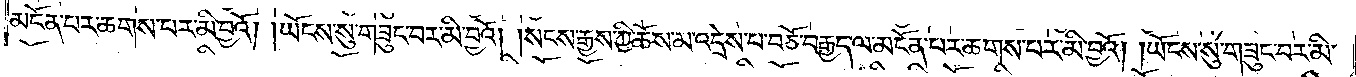མངོན་པར་ཆགས་པར་མི་བྱའོ། །ཡོངས་སུ་གཟུང་བར་མི་བྱའོ། །སངས་རྒྱས་ཀྱི་ཆོས་མ་འདྲེས་པ་བཅོ་བརྒྱད་ལ་མངོན་པར་ཆགས་པར་མི་བྱའོ། །ཡོངས་སུ་གཟུང་བར་མི་
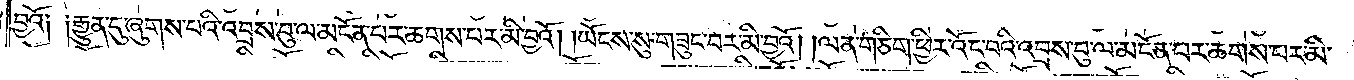བྱའོ༑ ༑རྒྱུན་དུ་ཞུགས་པའི་འབྲས་བུ་ལ་མངོན་པར་ཆགས་པར་མི་བྱའོ། །ཡོངས་སུ་གཟུང་བར་མི་བྱའོ། །ལན་གཅིག་ཕྱིར་འོང་བའི་འབྲས་བུ་ལ་མངོན་པར་ཆགས་པར་མི་
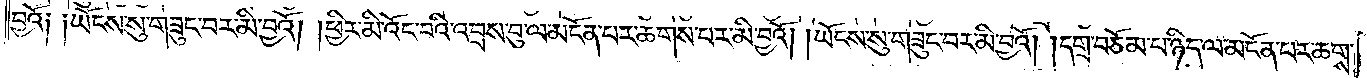བྱའོ༑ ༑ཡོངས་སུ་གཟུང་བར་མི་བྱའོ། །ཕྱིར་མི་འོང་བའི་འབྲས་བུ་ལ་མངོན་པར་ཆགས་པར་མི་བྱའོ། །ཡོངས་སུ་གཟུང་བར་མི་བྱའོ། །དགྲ་བཅོམ་པ་ཉིད་ལ་མངོན་པར་ཆགས་
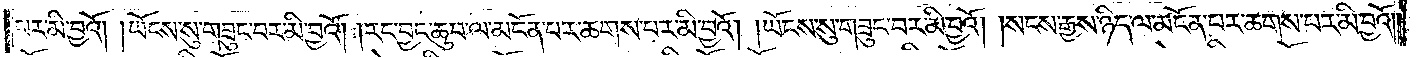པར་མི་བྱའོ། །ཡོངས་སུ་གཟུང་བར་མི་བྱའོ། །རང་བྱང་ཆུབ་ལ་མངོན་པར་ཆགས་པར་མི་བྱའོ། །ཡོངས་སུ་གཟུང་བར་མི་བྱའོ། །སངས་རྒྱས་ཉིད་ལ་མངོན་པར་ཆགས་པར་མི་བྱའོ༎
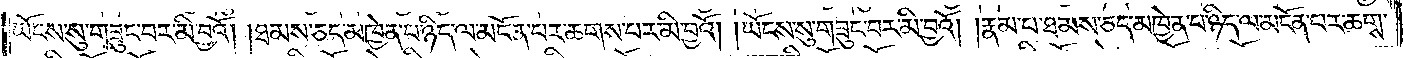ཡོངས་སུ་གཟུང་བར་མི་བྱའོ། །ཐམས་ཅད་མཁྱེན་པ་ཉིད་ལ་མངོན་པར་ཆགས་པར་མི་བྱའོ། །ཡོངས་སུ་གཟུང་བར་མི་བྱའོ། །རྣམ་པ་ཐམས་ཅད་མཁྱེན་པ་ཉིད་ལ་མངོན་པར་ཆགས་
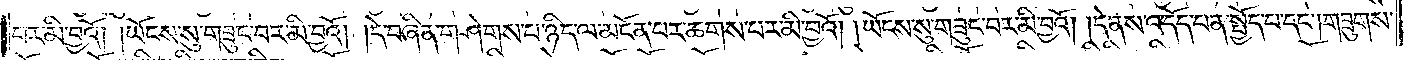པར་མི་བྱའོ། །ཡོངས་སུ་གཟུང་བར་མི་བྱའོ། །དེ་བཞིན་གཤེགས་པ་ཉིད་ལ་མངོན་པར་ཆགས་པར་མི་བྱའོ། །ཡོངས་སུ་གཟུང་བར་མི་བྱའོ། །དེ་ནས་འདོད་པ་ན་སྤྱོད་པ་དང༌། གཟུགས་
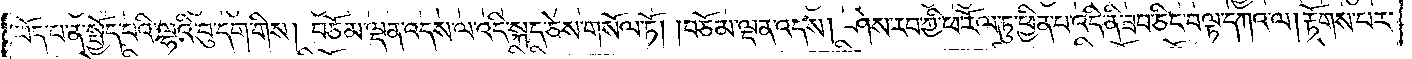ཡོད་པ་ན་སྤྱོད་པའི་ལྷའི་བུ་དག་གིས། བཅོམ་ལྡན་འདས་ལ་འདི་སྐད་ཅེས་གསོལ་ཏོ། །བཅོམ་ལྡན་འདས། ཤེས་རབ་ཀྱི་ཕ་རོལ་ཏུ་ཕྱིན་པ་འདི་ནི་ཟབ་ཅིང་བལྟ་དཀའ་ལ། རྟོགས་པར་
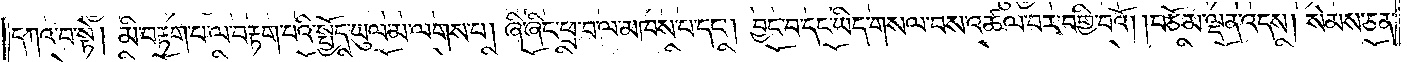དཀའ་བ་སྟེ། མི་བརྟག་པ་ལ་བརྟག་པའི་སྤྱོད་ཡུལ་མ་ལགས་པ། ཞི་ཞིང་ཕྲ་བ་ལ་མཁས་པ་དང༌། བྱང་བ་དང་ཡིད་གསལ་བས་འཚལ་བར་བགྱི་བའོ། །བཅོམ་ལྡན་འདས། སེམས་ཅན་
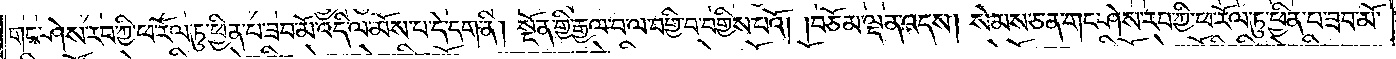གང་ཤེས་རབ་ཀྱི་ཕ་རོལ་ཏུ་ཕྱིན་པ་ཟབ་མོ་འདི་ལ་མོས་པ་དེ་དག་ནི། སྔོན་གྱི་རྒྱལ་བ་ལ་བགྱི་བ་བགྱིས་པའོ། །བཅོམ་ལྡན་འདས། སེམས་ཅན་གང་ཤེས་རབ་ཀྱི་ཕ་རོལ་ཏུ་ཕྱིན་པ་ཟབ་མོ་
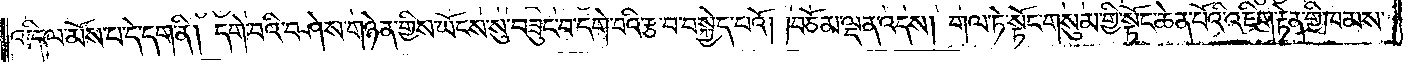འདི་ལ་མོས་པ་དེ་དག་ནི། དགེ་བའི་བཤེས་གཉེན་གྱིས་ཡོངས་སུ་གཟུང་བ་དགེ་བའི་རྩ་བ་བསྐྱེད་པའོ། །བཅོམ་ལྡན་འདས། གལ་ཏེ་སྟོང་གསུམ་གྱི་སྟོང་ཆེན་པོའི་འཇིག་རྟེན་གྱི་ཁམས་
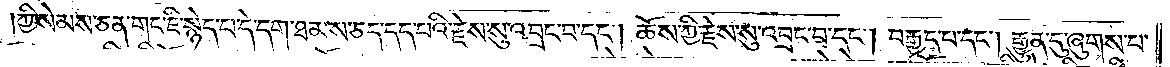ཀྱི་སེམས་ཅན་གང་ཇི་སྙེད་པ་དེ་དག་ཐམས་ཅད་དད་པའི་རྗེས་སུ་འབྲང་བ་དང༌། ཆོས་ཀྱི་རྗེས་སུ་འབྲང་བ་དང༌། བརྒྱད་པ་དང༌། རྒྱུན་དུ་ཞུགས་པ་
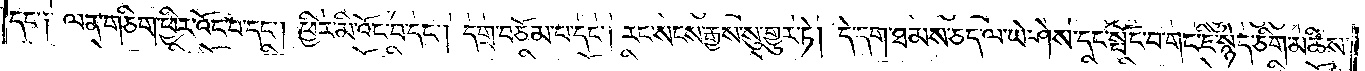དང༌༑ ལན་གཅིག་ཕྱིར་འོང་བ་དང༌། ཕྱིར་མི་འོང་བ་དང༌། དགྲ་བཅོམ་པ་དང༌། རང་སངས་རྒྱས་སུ་གྱུར་ཏེ། དེ་དག་ཐམས་ཅད་ལ་ཡེ་ཤེས་དང་སྤོང་བ་གང་ཇི་སྙེད་ཅིག་མཆིས་
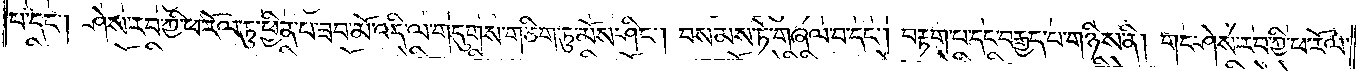པ་དང༌། ཤེས་རབ་ཀྱི་ཕ་རོལ་ཏུ་ཕྱིན་པ་ཟབ་མོ་འདི་ལ་གདུགས་གཅིག་ཏུ་མོས་ཤིང༌། བསམས་ཏེ་གཞལ་བ་དང༌། བརྟག་པ་དང་བརྒྱད་པ་གཉིས་ནི། གང་ཤེས་རབ་ཀྱི་ཕ་རོལ་
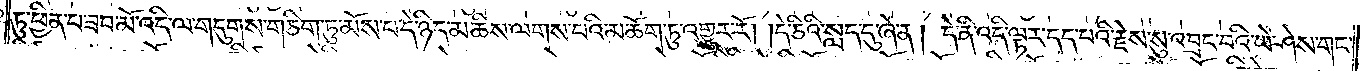ཏུ་ཕྱིན་པ་ཟབ་མོ་འདི་ལ་གདུགས་གཅིག་ཏུ་མོས་པ་དེ་ཉིད་མཆིས་ལགས་པའི་མཆོག་ཏུ་འགྱུར་རོ། །དེ་ཅིའི་སླད་དུ་ཞེ་ན། དེ་ནི་འདི་ལྟར་དད་པའི་རྗེས་སུ་འབྲང་བའི་ཡེ་ཤེས་གང་
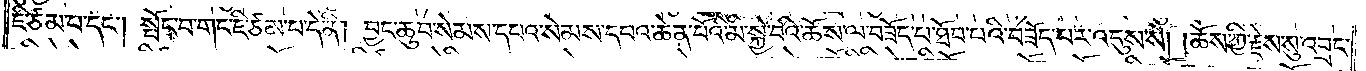ཇི་ཙམ་པ་དང༌། སྤོང་བ་གང་ཇི་ཙམ་པ་དེ་ནི། བྱང་ཆུབ་སེམས་དཔའ་སེམས་དཔའ་ཆེན་པོའི་མི་སྐྱེ་བའི་ཆོས་ལ་བཟོད་པ་ཐོབ་པའི་བཟོད་པར་འདུས་སོ། །ཆོས་ཀྱི་རྗེས་སུ་འབྲང་
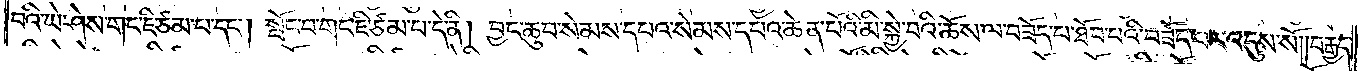བའི་ཡེ་ཤེས་གང་ཇི་ཙམ་པ་དང༌། སྤོང་བ་གང་ཇི་ཙམ་པ་དེ་ནི། བྱང་ཆུབ་སེམས་དཔའ་སེམས་དཔའ་ཆེན་པོའི་མི་སྐྱེ་བའི་ཆོས་ལ་བཟོད་པ་ཐོབ་པའི་བཟོད་པར་འདུས་སོ། །བརྒྱད་
